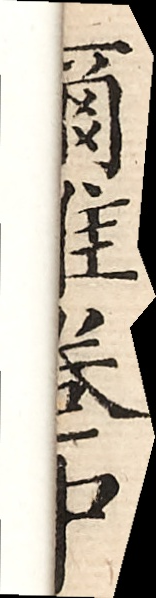爾雅卷中
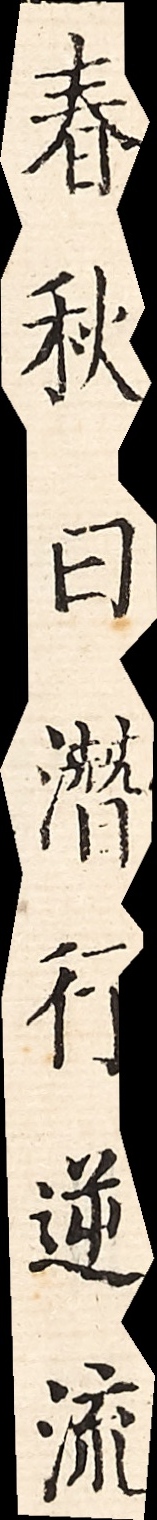春秋曰潛行逆流
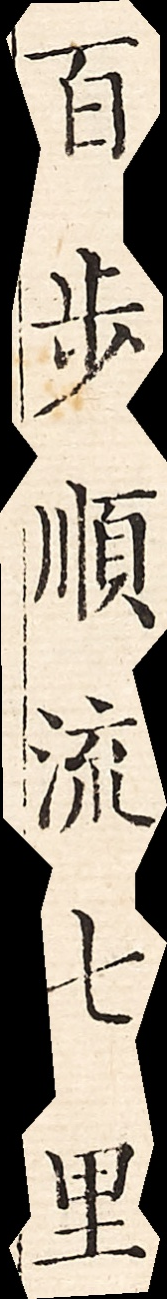百步順流七里
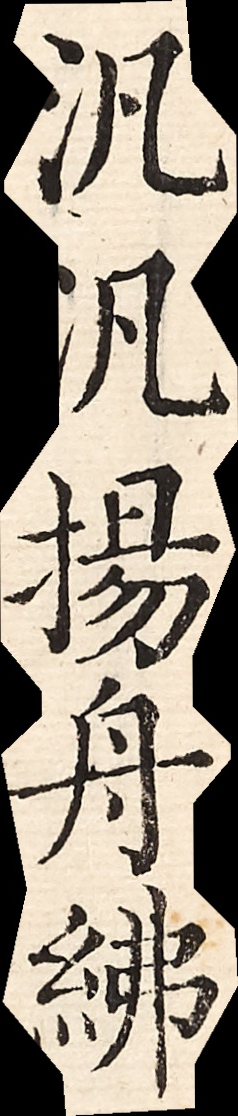汎汎楊舟紼
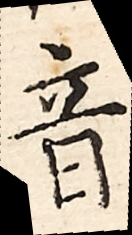音
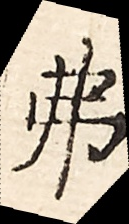弗
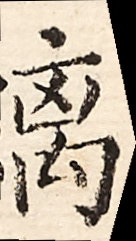縭
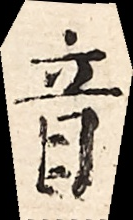音
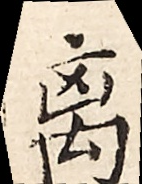离
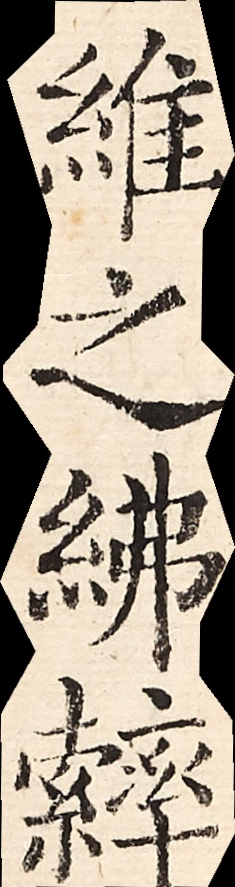維之紼繂
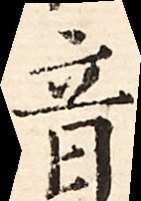音
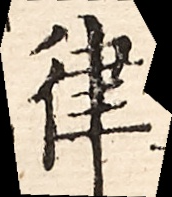律
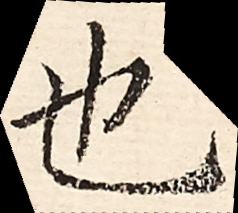也
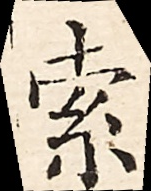索
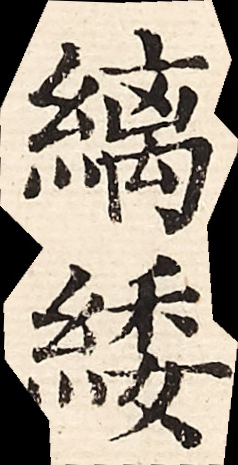縭緌
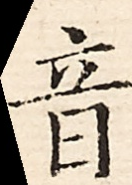音
